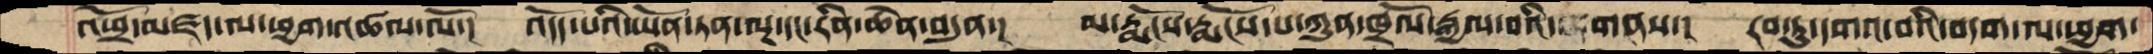འཕྲོ་མཛད་ལ་ཕྱག་འཚལ་ལོ་།  འདོད་པའི་ཡོན་ཏན་ལྔ་དང་རིན་ཆེན་བདུན་།  མ་རྨོངས་རྨོངས་པ་ཀུན་ཁྲོལ་རྒྱལ་བའི་ གནས་།  རབ་ཏུ་དགའ་བའི་བདག་ལ་ཕྱག་
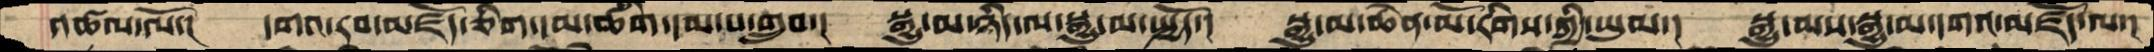འཚལ་ལོ་།  དགའ་རབ་མཛོད་ཅིག་དམ་ཚིག་དམ་པ་གྲུབ་།  སྒྱུ་མ་ཉིད་ལ་སྒྱུ་མ་སྤྱོད་།  སྒྱུ་མ་ཆེན་མོ་རིགས་ཀྱི་ཡུམ་།  སྒྱུ་མས་སྒྱུ་མ་དགའ་མཛོད་ལ་།
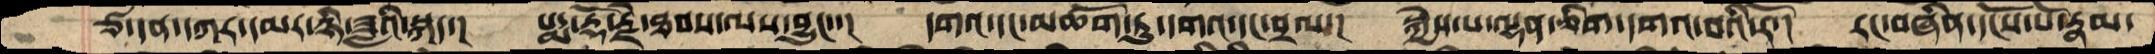ཙ་དན་དཀར་དམར་ཉི་ཟླའི་སྐད་།  པདྨ་རྡོ་རྗེ་ཐབས་ལས་བྱུང་་།  དགའ་དང་མཆོག་ཏུ་དགའ་དང་བྲལ་།  སྐྱེས་པ་ལྷན་ཅིག་དགའ་བའི་རོ་།  རང་བཞིན་དངོས་པོ་རྣམ་
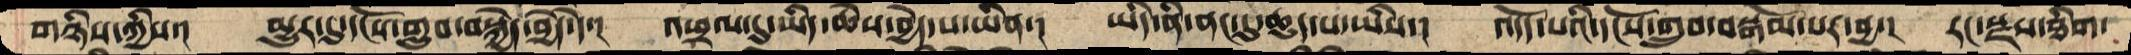གཉིས་ཀྱིས་།  མྱུར་དུ་དངོས་གྲུབ་བསྐྱེད་བྱེད་དེ་།  འཕྲལ་དུ་ཡིད་ཆེས་བྱེད་པ་ཡིན་།  ཡིད་ནི་ནང་དུ་ཆུད་པ་ཡིས་།  འདོད་པའི་དངོས་གྲུབ་བསྒོམ་པར་བྱ་།  རང་སྫས་ཐིག་
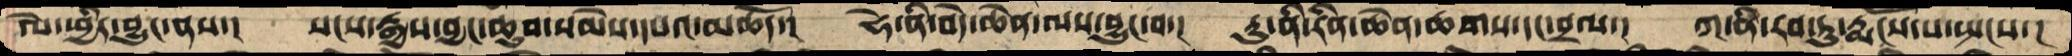ལེ་ཕྱིར་བྱུང་ནས་།  སངས་རྒྱས་བྱང་ཆུབ་སེམས་དཔའ་མཆོད་།  ཧེ་ནི་བདེ་ཆེན་ལས་བྱུང་བ་།  རུ་ནི་རིན་ཆེན་ཆགས་དང་བྲལ་།  ཀ་ནི་རབ་ཏུ་རྨངོས་པ་སྤངས་།
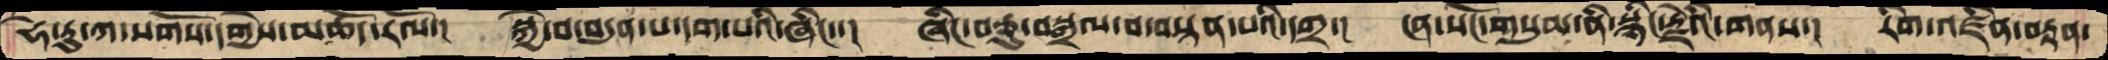ཧེ་རུ་ཀ་སོགས་དགྱེས་མཆོད་རོལ་།  སྐྱེ་བ་བདུན་པ་དག་པའི་ཞིང་་།  ཞིང་བཅུ་བསྒྲལ་བ་བསྟན་པའི་དགྲ་།  ངན་སོང་གསུམ་ནི་སྙིང་རྗེའི་གནས་།  རིག་འཛིན་བརྟན་
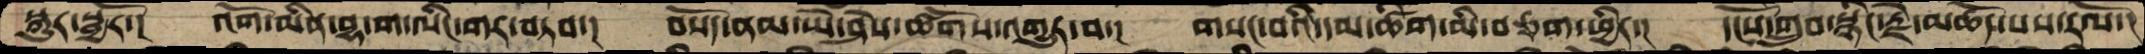སྐུར་སྦྱོར་།  འོག་མིན་བྷ་ག་ལིང་གར་བཏབ་།  བསོད་ནམས་ཡེ་ཤེས་ཚོགས་འགྱུར་བ་།  གསང་བའི་དམ་ཚིག་མི་བཅག་ཕྱིར་།  དངོས་གྲུབ་སྙིང་རྗེ་མཆོད་པས་རོལ་།
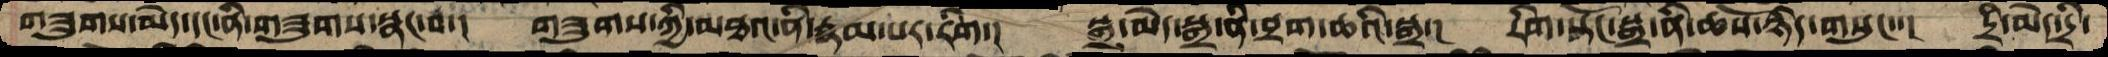གཟུགས་མེད་དང་ནི་གཟུགས་སྣང་བ་།  གཟུགས་ཀྱི་མཐའ་ནི་རྣམ་པར་རིག།  སྒྲ་མེད་སྒྲ་ནི་བྲག་ཆའི་སྒྲ་།  རིག་སྟོང་སྒྲ་ནི་ཆོས་ཉིད་གསུང་་།  དྲི་མེད་དྲི་
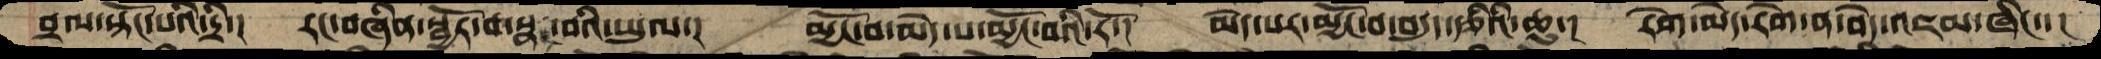བྲལ་སྟོང་པའི་དྲི་།  རང་བཞིན་སྦྱོར་བ་སྣ ་བའི་ཡུལ་།  མྱོང་བ་མེད་པ་མྱོང་བའི་རོ་།  མེད་པར་མྱོང་བ་བདུད་རྩིའི་ཆུ་།།  རེག་མེད་རིག་ན་བདེ་འཇམ་ཞིང་་།
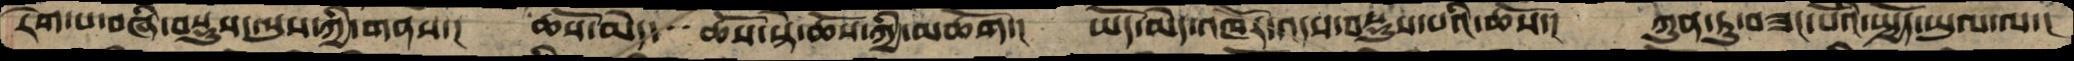རེག་པ་བཞི་བསྡུས་ལུས་ཀྱི་གནས་།  ཆོས་མེད་  ཆོས་སྟེ་ཆོས་ཀྱི་མཆོག་།  ཡོད་མེད་འཁོར་འདས་བསྡུས་པའི་ཆོས་།  ཀུན་ཏུ་བཟང་པོའི་སྤྱོད་ཡུལ་ལ་།
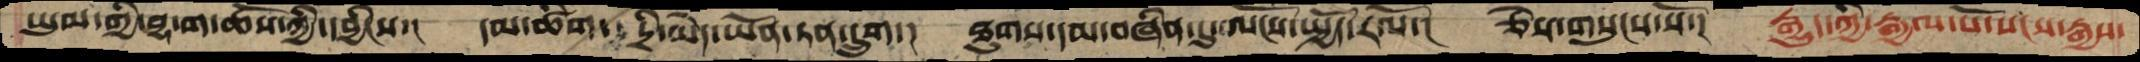ཡུམ་གྱི་བྷ་ག་ཆོས་ཀྱི་དབྱིངས་།  དམ་ཚིག་ དྲི་མེད་ཡོན་ཏན་དྲུག་།  ཐུགས་དམ་བཞིན་དུ་ལོངས་སྤྱོད་རོལ་།  ཅེས་གསུངས་སོ་།  རྒྱུད་ཀྱི་རྒྱལ་པོ་སངས་རྒྱས་
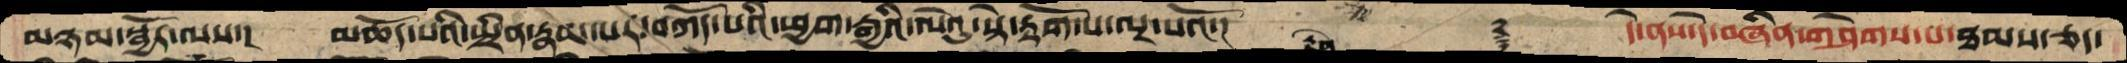མཉམ་སྦྱོར་ལས་། མཆོད་པའི་སྤྲིན་རྣམ་པར་བཀོད་པའི་ཕྱག་རྒྱའི་ལེའུ་སྟེ་རྟོག་པ་ལྔ་པའོ་།    ༈   དེ་ནས་དེ་བཞིན་གཤེགས་པ་ཐམས་ཅད་
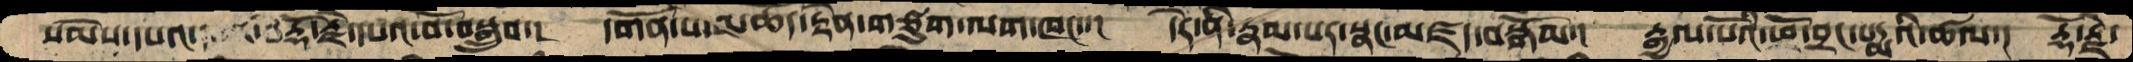སེམས་དཔའ་  རྡོ་རྗེ་དཔའ་བོ་བསྒྲུབ་།  དགོན་པ་མཆོད་རྟེན་གཙུག་ལག་ཁང་་།  དེར་ནི་རྣམ་པར་སྣང་མཛད་བསྒོམ་།  རྒྱལ་པོའི་ཕོ་བྲང་པདྨའི་ཚལ་།  རྡོ་རྗེ་
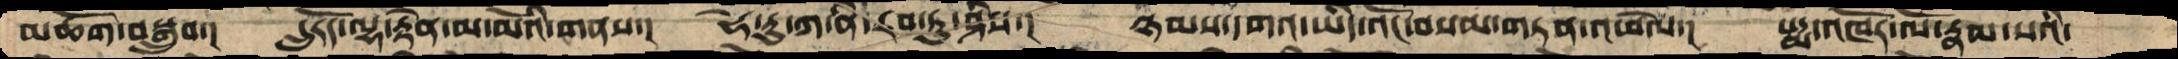མཆོག་བསྒྲུབ་།  དྲུརོད་ལྷ་རྟེན་མ་མོའི་གནས་།  ཧེ་རུ་ཀ་ནི་རབ་ཏུ་ཤིས་།  ཉམས་དགའ་ཡིད་འོང་བསམ་གཏན་འཕེལ་།  པདྨ་འཁོར་ལོ་རྣམ་པའི་
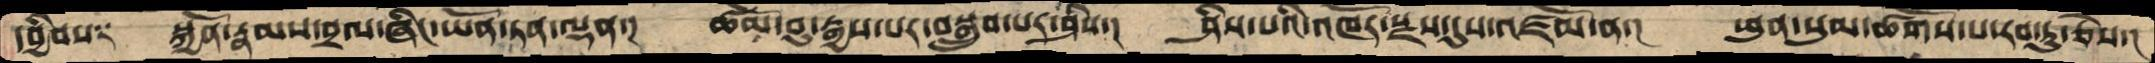དབྱིབས༑  སྐྱོན་རྣམས་བྲལ་ཞིང་ཡོན་ཏན་ལྡན་།  ཚོམ་བུ་རྒྱས་པར་བསྒྲུབ་པར་ཤིས་།  ཤིས་པའི་འཁོར་སྫས་དུས་འཛོམ་ན་།  ཕུན་སུམ་ཚོགས་པ་རབ་ཏུ་ཅེས་།
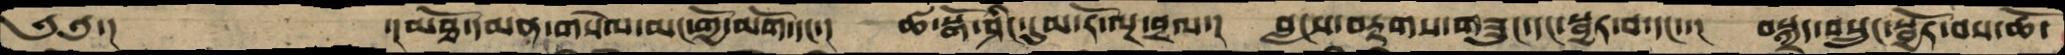༄༅་།   ་།མཐོ་དམན་གསེལ་མང་གྱོ་མགོ་དང་་།  ཚ་སྒོ་ཤིང་དུམ་རོ་ལྔ་བྲལ་།  བླངས་བརྟགས་གཟུང་དང་སྦྱར་བ་དང་་།  བསྐྲད་བསྲུང་སྦྱོར་བས་ཆོ་
